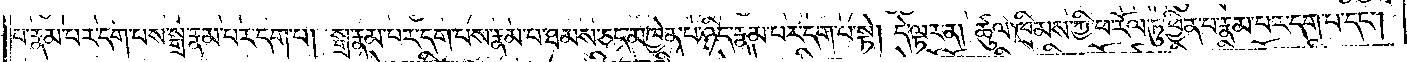པ་རྣམ་པར་དག་པས་སྒྲ་རྣམ་པར་དག་པ། སྒྲ་རྣམ་པར་དག་པས་རྣམ་པ་ཐམས་ཅད་མཁྱེན་པ་ཉིད་རྣམ་པར་དག་པ་སྟེ། དེ་ལྟར་ན། ཚུལ་ཁྲིམས་ཀྱི་ཕ་རོལ་ཏུ་ཕྱིན་པ་རྣམ་པར་དག་པ་དང༌།
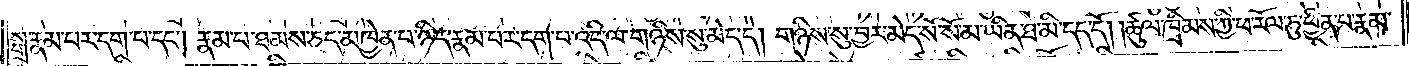སྒྲ་རྣམ་པར་དག་པ་དང༌། རྣམ་པ་ཐམས་ཅད་མཁྱེན་པ་ཉིད་རྣམ་པར་དག་པ་འདི་ལ་གཉིས་སུ་མེད་དེ། གཉིས་སུ་བྱར་མེད་སོ་སོ་མ་ཡིན་ཐ་མི་དད་དོ། །ཚུལ་ཁྲིམས་ཀྱི་ཕ་རོལ་ཏུ་ཕྱིན་པ་རྣམ་
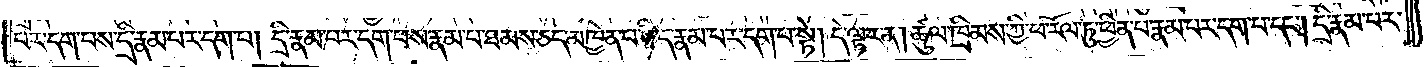པར་དག་པས་དྲི་རྣམ་པར་དག་པ། དྲི་རྣམ་པར་དག་པས་རྣམ་པ་ཐམས་ཅད་མཁྱེན་པ་ཉིད་རྣམ་པར་དག་པ་སྟེ། དེ་ལྟར་ན། ཚུལ་ཁྲིམས་ཀྱི་ཕ་རོལ་ཏུ་ཕྱིན་པ་རྣམ་པར་དག་པ་དང༌། དྲི་རྣམ་པར་
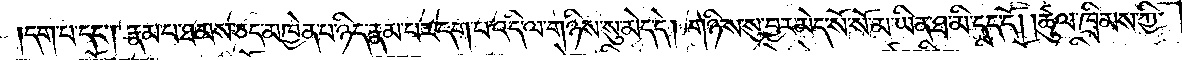དག་པ་དང༌། རྣམ་པ་ཐམས་ཅད་མཁྱེན་པ་ཉིད་རྣམ་པར་དག་པ་འདི་ལ་གཉིས་སུ་མེད་དེ། གཉིས་སུ་བྱར་མེད་སོ་སོ་མ་ཡིན་ཐ་མི་དད་དོ། །ཚུལ་ཁྲིམས་ཀྱི་
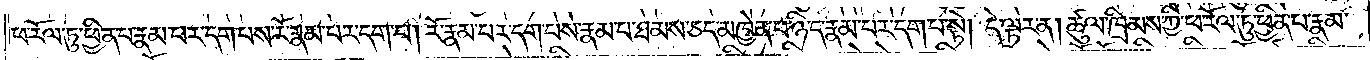ཕ་རོལ་ཏུ་ཕྱིན་པ་རྣམ་པར་དག་པས་རོ་རྣམ་པར་དག་པ། རོ་རྣམ་པར་དག་པས་རྣམ་པ་ཐམས་ཅད་མཁྱེན་པ་ཉིད་རྣམ་པར་དག་པ་སྟེ། དེ་ལྟར་ན། ཚུལ་ཁྲིམས་ཀྱི་ཕ་རོལ་ཏུ་ཕྱིན་པ་རྣམ་
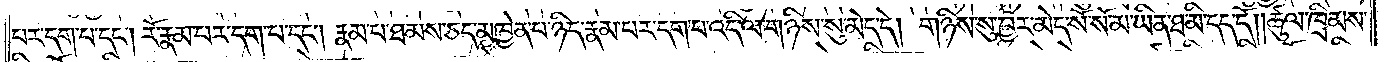པར་དག་པ་དང༌། རོ་རྣམ་པར་དག་པ་དང༌། རྣམ་པ་ཐམས་ཅད་མཁྱེན་པ་ཉིད་རྣམ་པར་དག་པ་འདི་ལ་གཉིས་སུ་མེད་དེ། གཉིས་སུ་བྱར་མེད་སོ་སོ་མ་ཡིན་ཐ་མི་དད་དོ། །ཚུལ་ཁྲིམས་
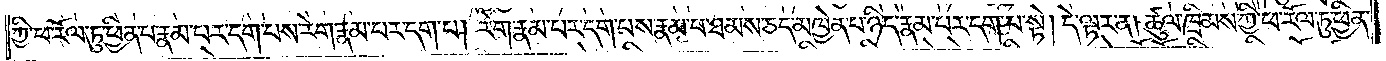ཀྱི་ཕ་རོལ་ཏུ་ཕྱིན་པ་རྣམ་པར་དག་པས་རེག་པ་རྣམ་པར་དག་པ། རེག་རྣམ་པར་དག་པས་རྣམ་པ་ཐམས་ཅད་མཁྱེན་པ་ཉིད་རྣམ་པར་དག་པ་སྟེ། དེ་ལྟར་ན། ཚུལ་ཁྲིམས་ཀྱི་ཕ་རོལ་ཏུ་ཕྱིན་
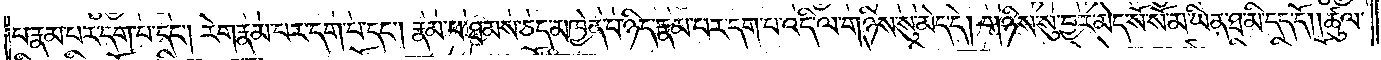པ་རྣམ་པར་དག་པ་དང༌། རེག་པ་རྣམ་པར་དག་པ་དང༌། རྣམ་པ་ཐམས་ཅད་མཁྱེན་པ་ཉིད་རྣམ་པར་དག་པ་འདི་ལ་གཉིས་སུ་མེད་དེ། གཉིས་སུ་བྱར་མེད་སོ་སོ་མ་ཡིན་ཐ་མི་དད་དོ། །ཚུལ་
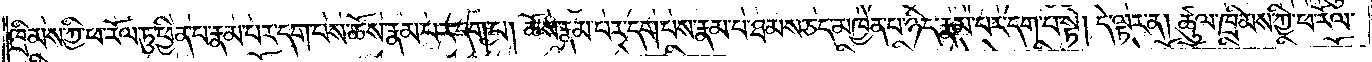ཁྲིམས་ཀྱི་ཕ་རོལ་ཏུ་ཕྱིན་པ་རྣམ་པར་དག་པས་ཆོས་རྣམ་པར་དག་པ། ཆོས་རྣམ་པར་དག་པས་རྣམ་པ་ཐམས་ཅད་མཁྱེན་པ་ཉིད་རྣམ་པར་དག་པ་སྟེ། དེ་ལྟར་ན། ཚུལ་ཁྲིམས་ཀྱི་ཕ་རོལ་
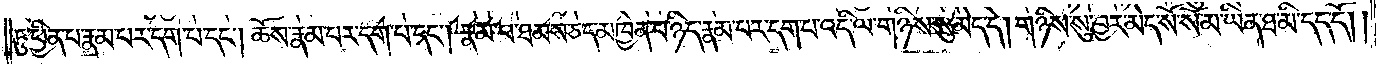ཏུ་ཕྱིན་པ་རྣམ་པར་དག་པ་དང༌། ཆོས་རྣམ་པར་དག་པ་དང༌། རྣམ་པ་ཐམས་ཅད་མཁྱེན་པ་ཉིད་རྣམ་པར་དག་པ་འདི་ལ་གཉིས་སུ་མེད་དེ། གཉིས་སུ་བྱར་མེད་སོ་སོ་མ་ཡིན་ཐ་མི་དད་དོ། །
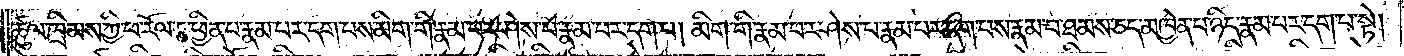ཚུལ་ཁྲིམས་ཀྱི་ཕ་རོལ་ཏུ་ཕྱིན་པ་རྣམ་པར་དག་པས་མིག་གི་རྣམ་པར་ཤེས་པ་རྣམ་པར་དག་པ། མིག་གི་རྣམ་པར་ཤེས་པ་རྣམ་པར་དག་པས་རྣམ་པ་ཐམས་ཅད་མཁྱེན་པ་ཉིད་རྣམ་པར་དག་པ་སྟེ།
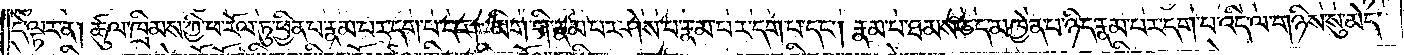དེ་ལྟར་ན། ཚུལ་ཁྲིམས་ཀྱི་ཕ་རོལ་ཏུ་ཕྱིན་པ་རྣམ་པར་དག་པ་དང༌། མིག་གི་རྣམ་པར་ཤེས་པ་རྣམ་པར་དག་པ་དང༌། རྣམ་པ་ཐམས་ཅད་མཁྱེན་པ་ཉིད་རྣམ་པར་དག་པ་འདི་ལ་གཉིས་སུ་མེད་
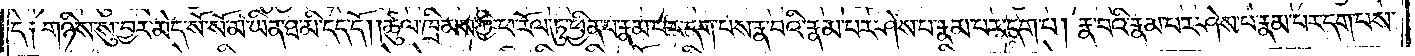དེ༑ གཉིས་སུ་བྱར་མེད་སོ་སོ་མ་ཡིན་ཐ་མི་དད་དོ། །ཚུལ་ཁྲིམས་ཀྱི་ཕ་རོལ་ཏུ་ཕྱིན་པ་རྣམ་པར་དག་པས་རྣ་བའི་རྣམ་པར་ཤེས་པ་རྣམ་པར་དག་པ། རྣ་བའི་རྣམ་པར་ཤེས་པ་རྣམ་པར་དག་པས་
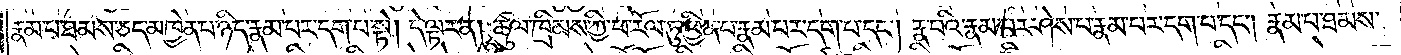རྣམ་པ་ཐམས་ཅད་མཁྱེན་པ་ཉིད་རྣམ་པར་དག་པ་སྟེ། དེ་ལྟར་ན། ཚུལ་ཁྲིམས་ཀྱི་ཕ་རོལ་ཏུ་ཕྱིན་པ་རྣམ་པར་དག་པ་དང༌། རྣ་བའི་རྣམ་པར་ཤེས་པ་རྣམ་པར་དག་པ་དང༌། རྣམ་པ་ཐམས་
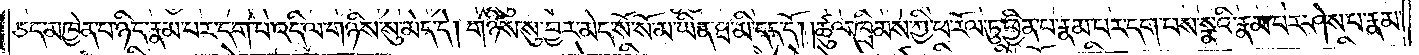ཅད་མཁྱེན་པ་ཉིད་རྣམ་པར་དག་པ་འདི་ལ་གཉིས་སུ་མེད་དེ། གཉིས་སུ་བྱར་མེད་སོ་སོ་མ་ཡིན་ཐ་མི་དད་དོ༎ ཚུལ་ཁྲིམས་ཀྱི་ཕ་རོལ་ཏུ་ཕྱིན་པ་རྣམ་པར་དག་པས་སྣའི་རྣམ་པར་ཤེས་པ་རྣམ་
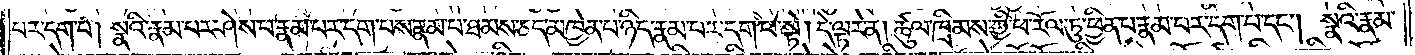པར་དག་པ། སྣའི་རྣམ་པར་ཤེས་པ་རྣམ་པར་དག་པས་རྣམ་པ་ཐམས་ཅད་མཁྱེན་པ་ཉིད་རྣམ་པར་དག་པ་སྟེ། དེ་ལྟར་ན། ཚུལ་ཁྲིམས་ཀྱི་ཕ་རོལ་ཏུ་ཕྱིན་པ་རྣམ་པར་དག་པ་དང༌། སྣའི་རྣམ་
